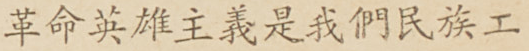革命英雄主義是我們民族工
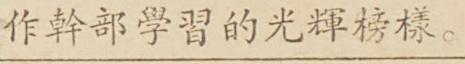作幹部學習的光輝榜樣。
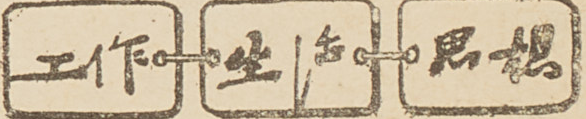工作 生活 思想
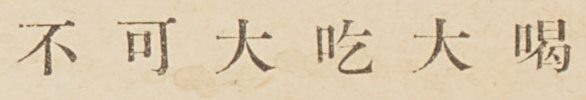不 可 大 吃 大 喝
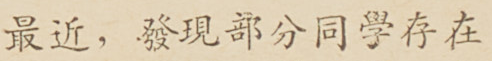最近，發現部分同學存在
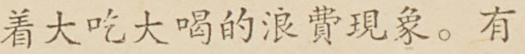着大吃大喝的浪費現象。有
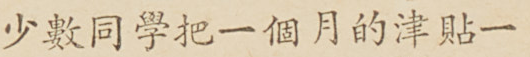少數同學把一個月的津貼一
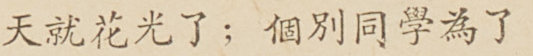田就花光了；個別同學為了
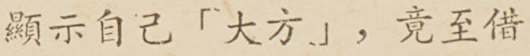顯示自己「大方」，竟至借
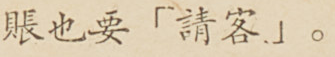賬也要「請客」。
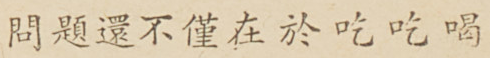問題還不僅在於吃吃喝
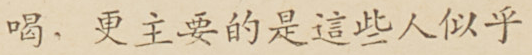喝，更主要的是這些人似乎
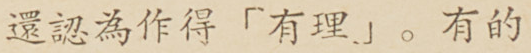還認為作得「有理」。有的
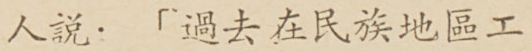人說：「過去在民族地區工
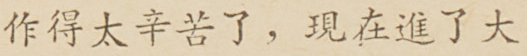作得太辛苦了，現在進了大
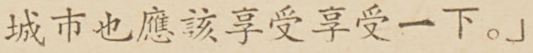城市也應該享受一下。」
